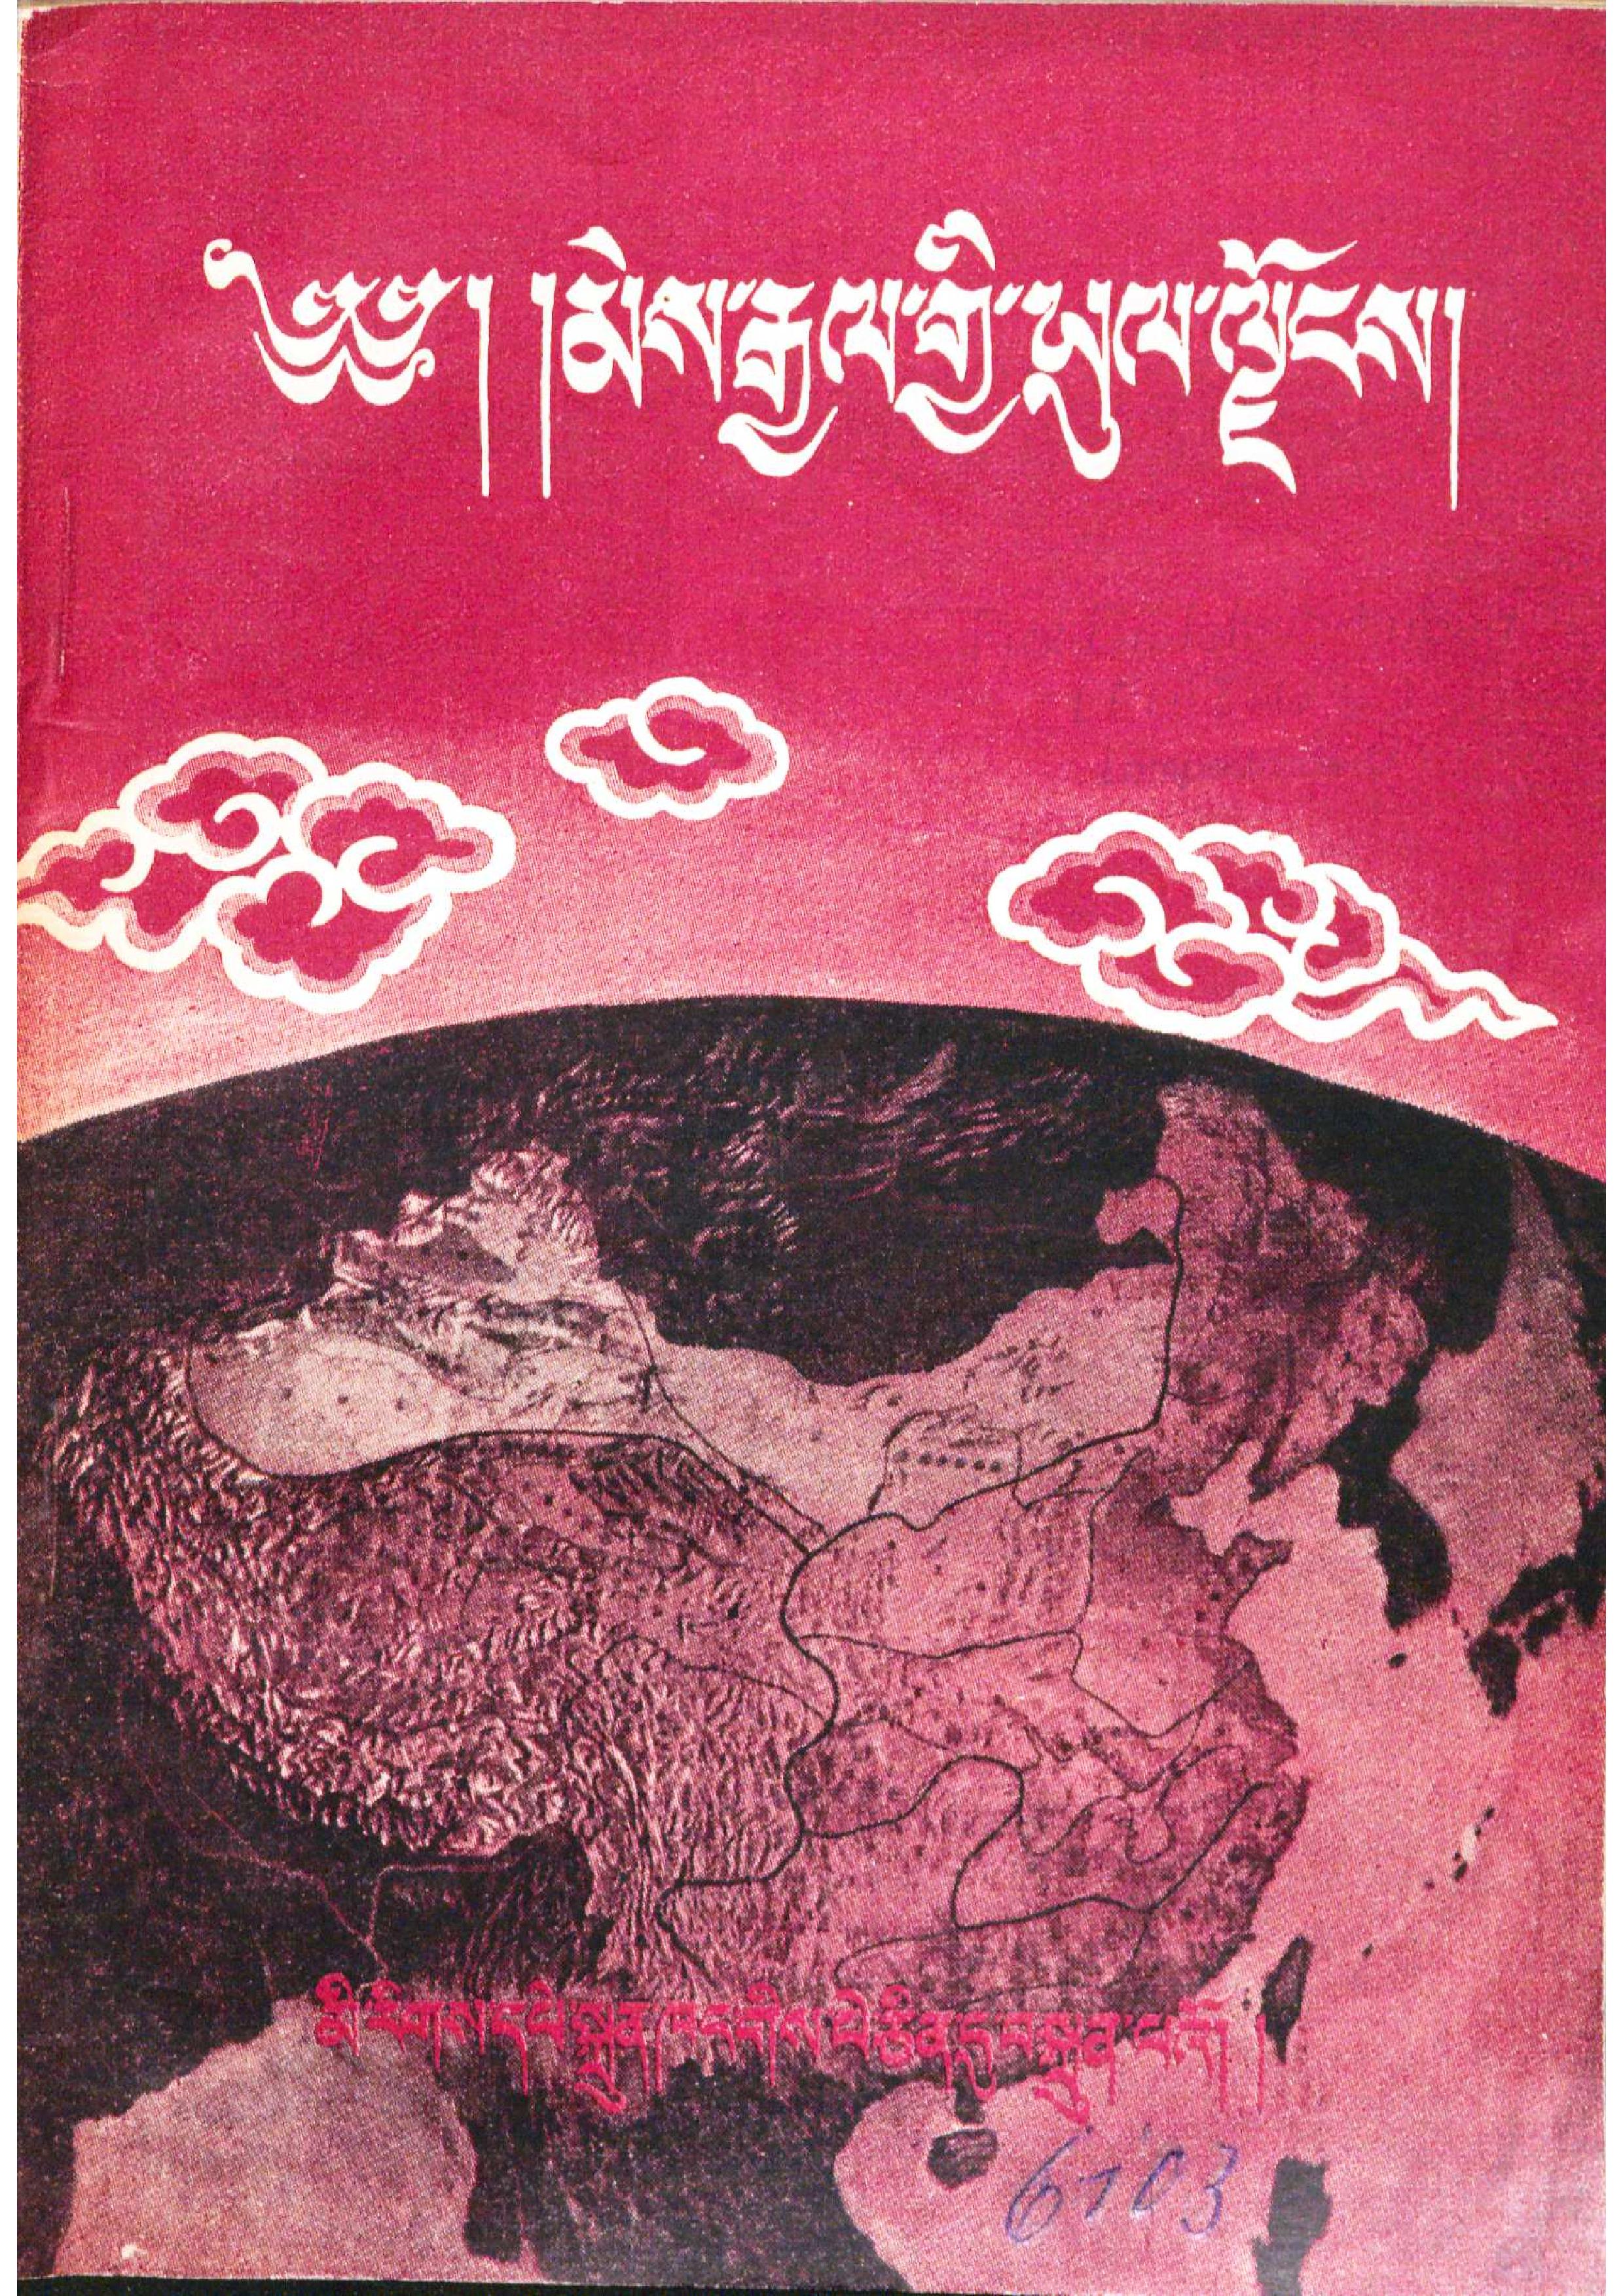༄༅༎མེས་རྒྱལ་གྱི་ཡུལ་ལྗོངས།
མི་རིགས་དཔེ་སྐྲུན་ཁང་གིས་པེ་ཅིན་དུ་བསྐྲུན་པའོ། །
